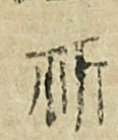祈
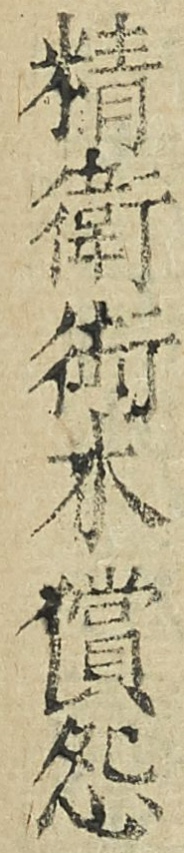精衞銜木償怨
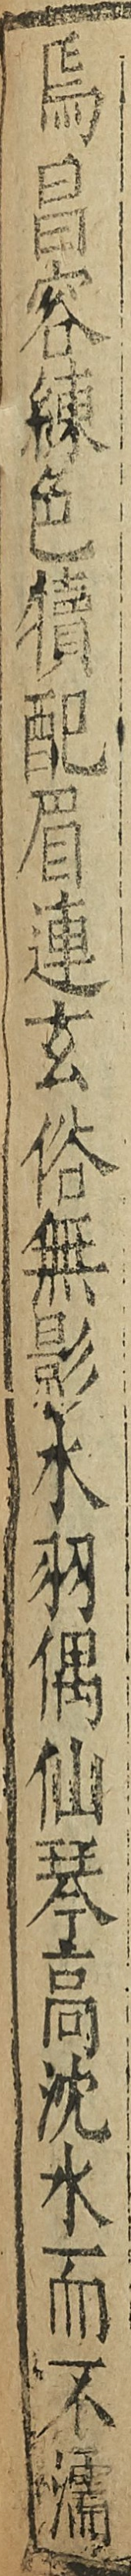焉昌容練色犢配眉連玄俗無影木羽偶仙琴高沈水而不濡
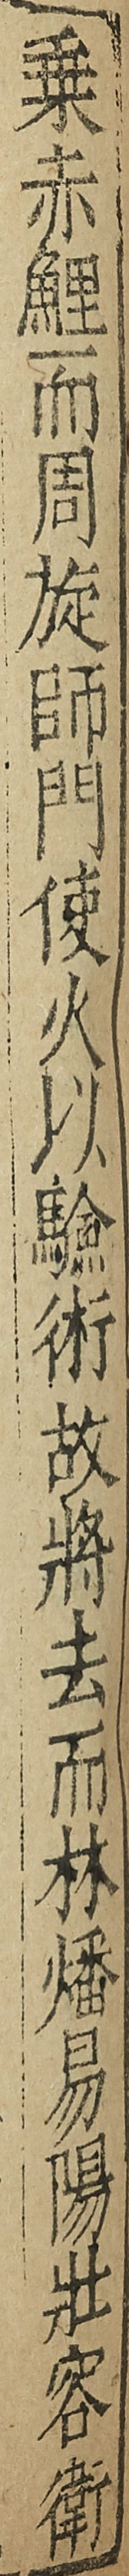乗赤鯉而周旋師門使火以驗術故將去而林燔易陽壯容衞
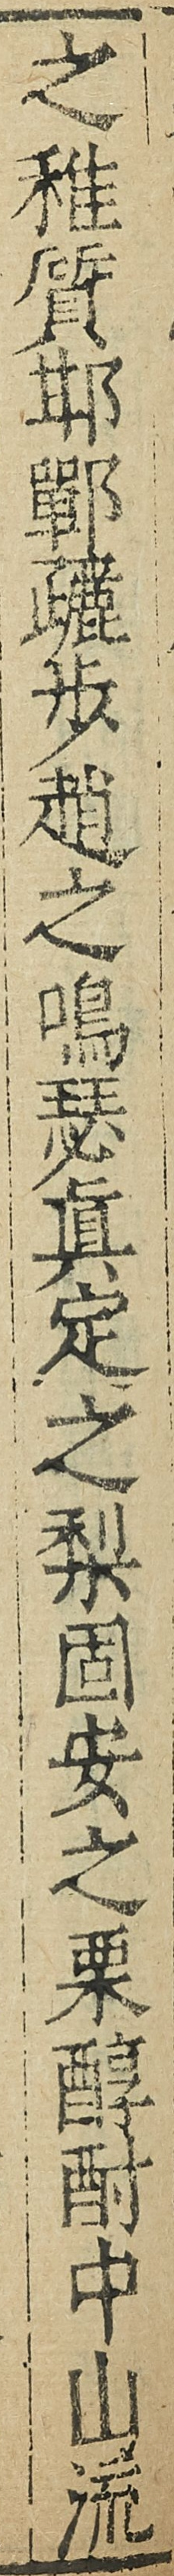之稚質邯鄲躧步趙之鳴瑟真定之梨固安之栗醇酎中山流
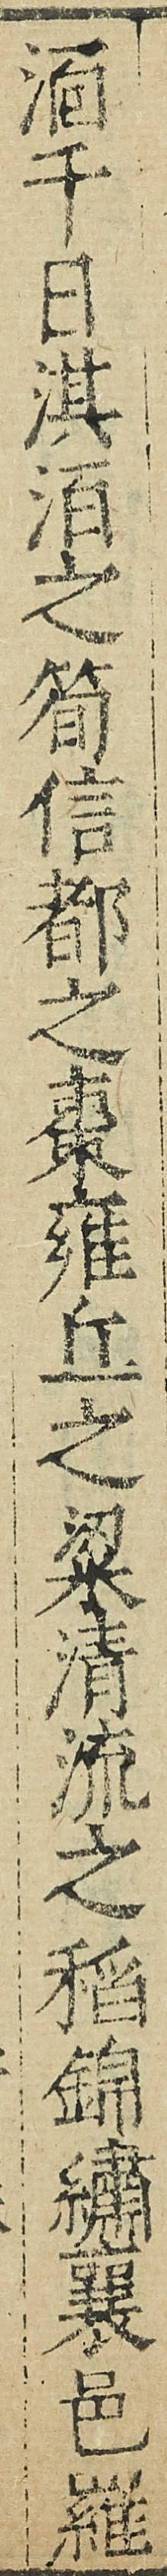湎千日淇洹之筍信都之棗雍丘之粱清流之稻錦繡襄邑羅
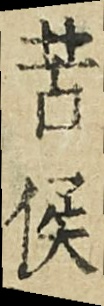苦侯
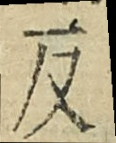反
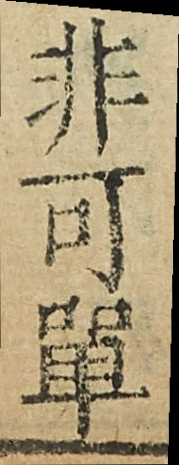非可單
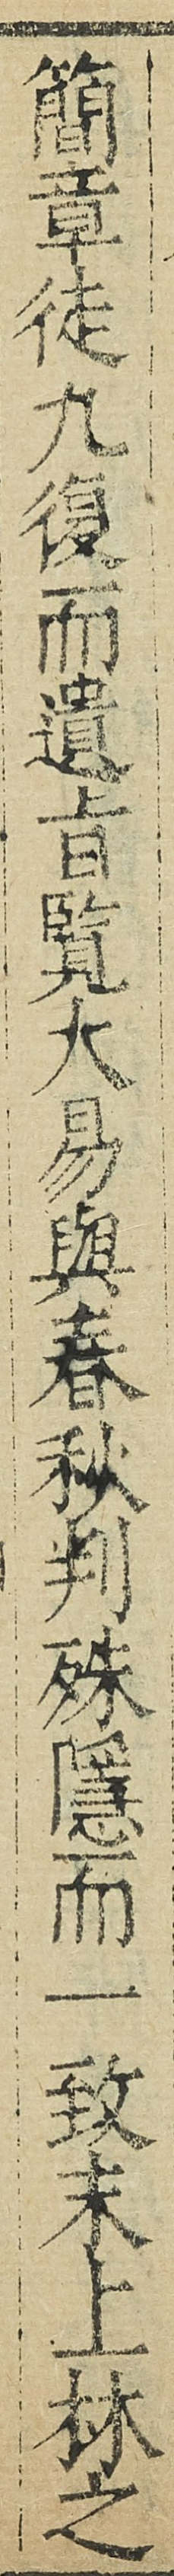簡章徒九復而遺㫖覽大易與春秋判殊隠而一致末上林之
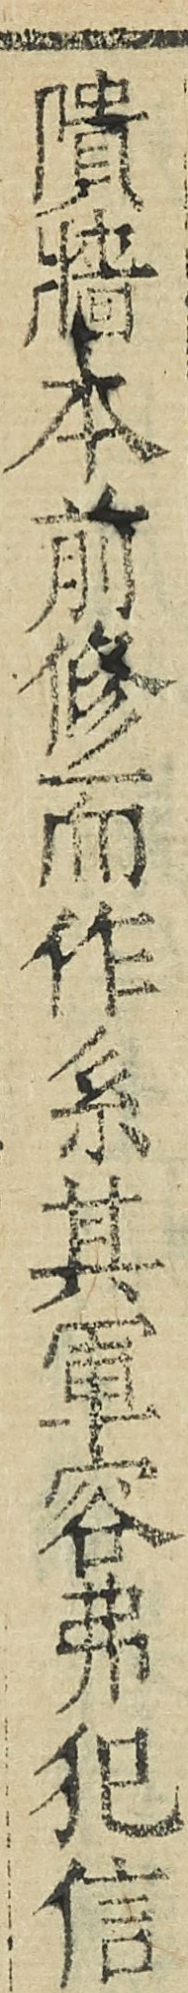隤牆本前修而作系其軍容弗犯信
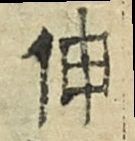伸
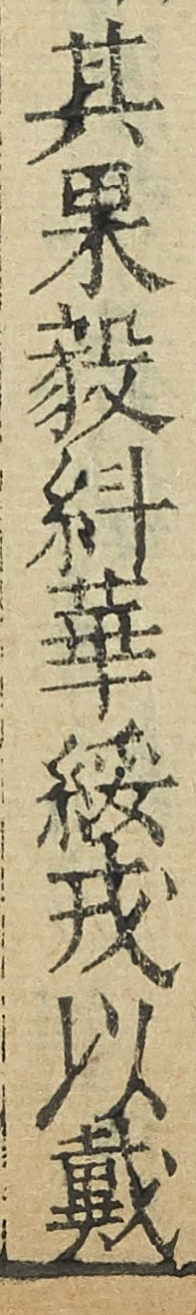其果毅紏華綏戎以戴
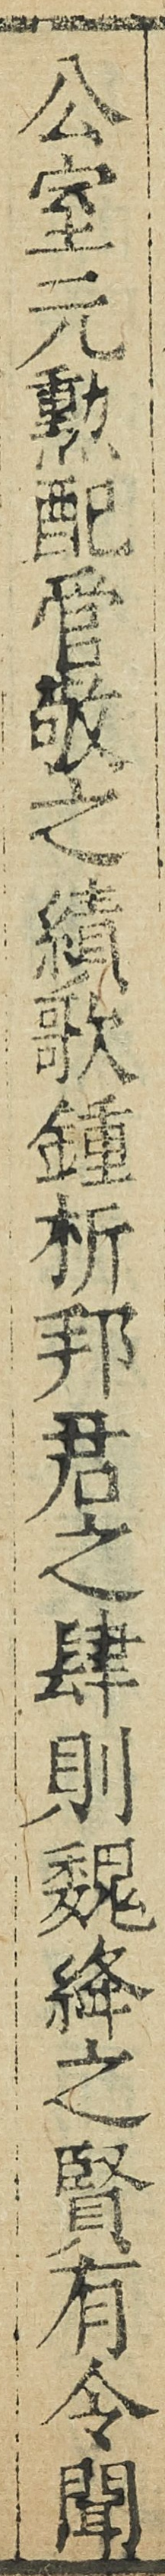公室元勲配管敬之績歌鐘析邦君之肆則魏絳之賢有令聞
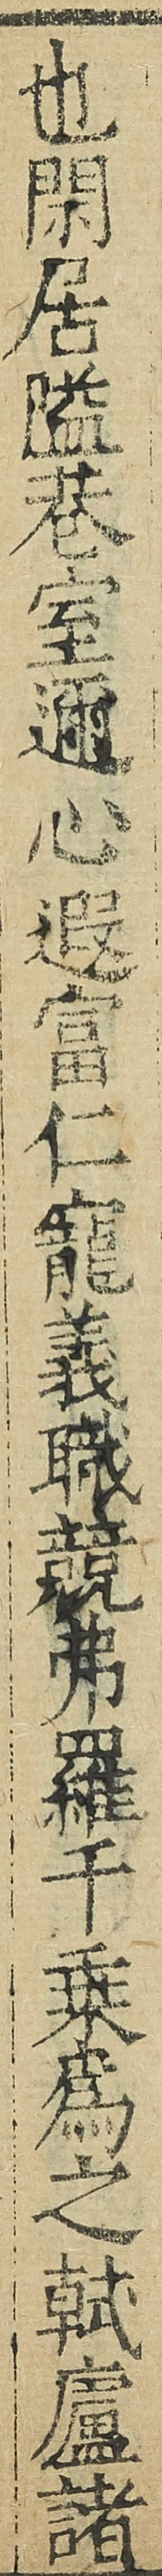也閑居隘巷室邇心遐富仁寵義職競弗羅千乗為之軾廬諸
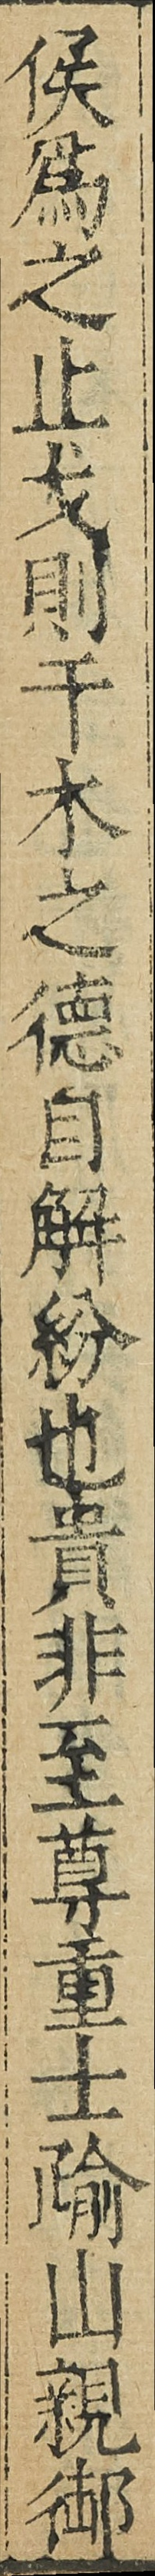侯為之止戈則干木之徳自解紛也貴非至尊重士踰山親御
